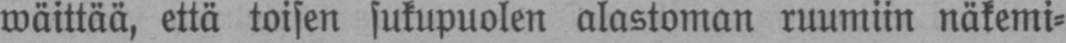wäittää, että toisen sukupuolen alastoman ruumiin näkemi-
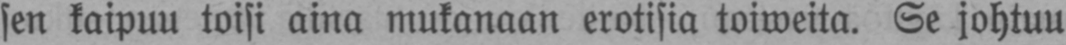sen kaipuu toisi aina mukanaan erotisia toiweita. Se johtuu
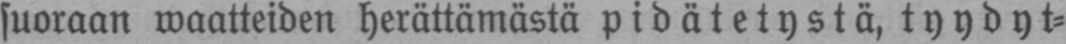suoraan waatteiden herättämästä pidätetystä, tyydyt-
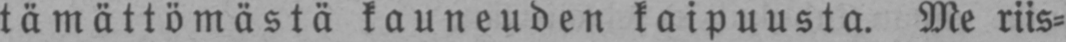tämättömästä kauneuden kaipuusta. Me riis-
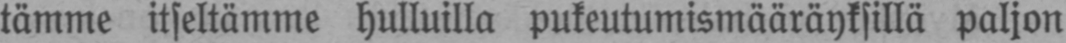tämme itseltämme hulluilla pukeutumismääräyksillä paljon
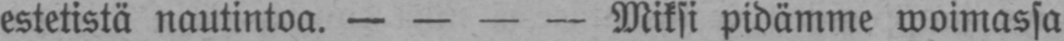estetistä nautintoa. — — — — Miksi pidämme woimassa
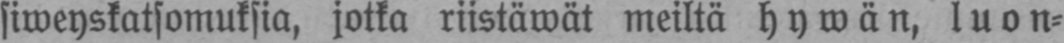siweyskatsomuksia, jotka riistäwät meiltä hywän, luon-
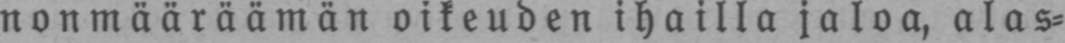nonmääräämän oikeuden ihailla jaloa, alas-
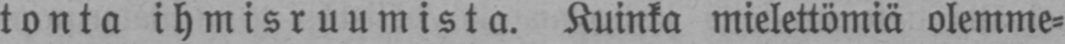tonta ihmisruumista. Kuinka mielettömiä olemme-
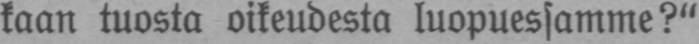kaan tuosta oikeudesta luopuessamme?"
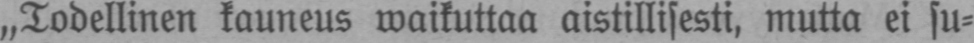„Todellinen kauneus waikuttaa aistillisesti, mutta ei su-
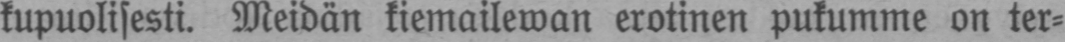kupuolisesti. Meidän kiemailewan erotinen pukumme on ter-
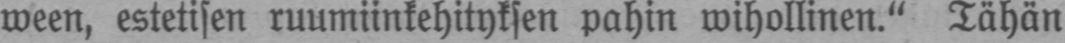ween, estetisen ruumiinkehityksen pahin wihollinen." Tähän
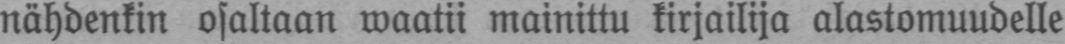nähdenkin osaltaan waatii mainittu kirjailija alastomuudelle
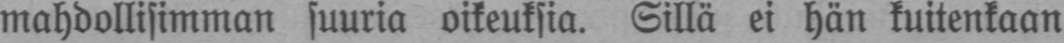mahdollisimman suuria oikeuksia. Sillä ei hän kuitenkaan
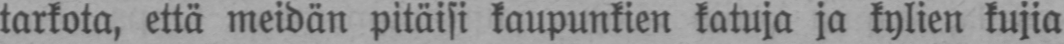tarkota, että meidän pitäisi kaupunkien katuja ja kylien kujia
